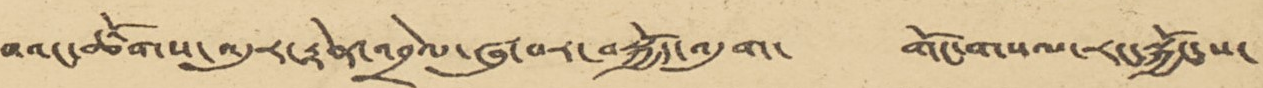བའང་ཚོགས་འདུར་རྟེན་འབྲེལ་ཞུ་བར་བསྐྱོད་འདུག་ གོང་གསལ་རང་སྐྱོང་ས་
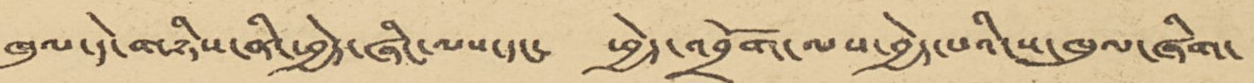ཁུལ་དེ་གཉིས་ནི་ཕྱེད་ཞིང་ལས་དང་ ཕྱེད་འབྲོག་ལས་བྱེད་པའི་ས་ཁུལ་ཞིག་
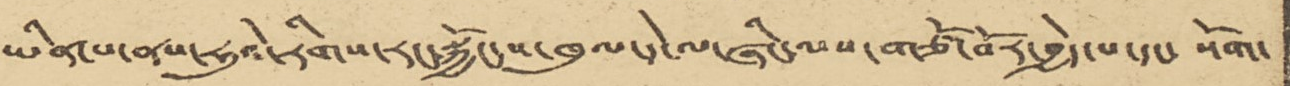ཡིན་པ་ནས་ཧུའེ་རིགས་རང་སྐྱོང་ས་ཁུལ་དེ་ལ་ཞིང་ལས་གཙོ་བོར་བྱེད་པ་དང་ སོག་
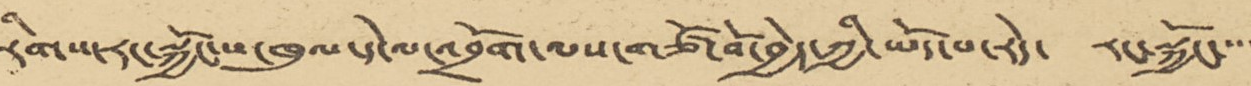རིགས་རང་སྐྱོང་ས་ཁུལ་དེ་ལ་འབྲོག་ལས་གཙོ་བོ་བྱེད་ཀྱི་ཡོད་པ་རེད་ རང་སྐྱོང་་་་
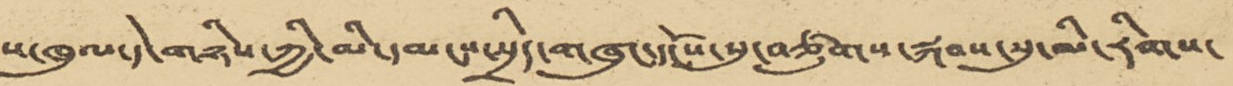ས་ཁུལ་དེ་གཉིས་ཀྱི་མི་དམངས་སྲིད་གཞུང་དངོས་སུ་བཙུགས་སྐབས་སུ་མི་རིགས་
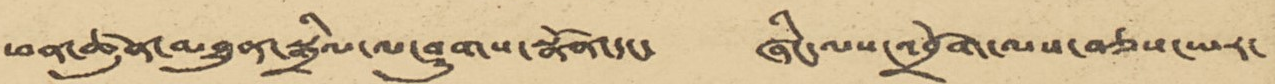ཕན་ཚུན་མཐུན་སྒྲིལ་ལ་ཤུགས་སྣོན་དང་ ཞིང་ལས་འབྲོག་ལས་བཅས་ཡར་
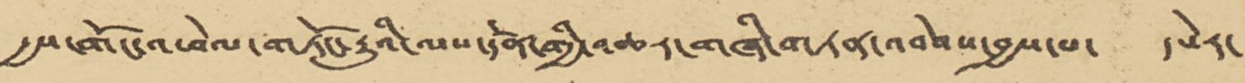རྒྱས་གོང་འཕེལ་གཏོང་རྒྱུའི་ལས་དོན་གྱི་འཆར་གཞི་གཏན་འབེབས་བྱས་པ་ དཔེར་
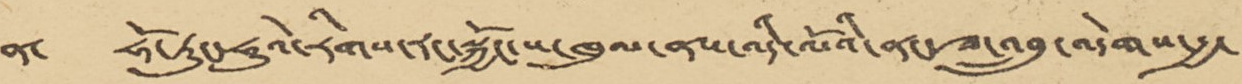ན་ ཧོ་ཏུང་ཧུའེ་རིགས་རང་སྐྱོང་ས་ཁུལ་ནས་འདི་ལོའི་ནང་ཟ་འབྲུ་འདེགས་རྒྱ་
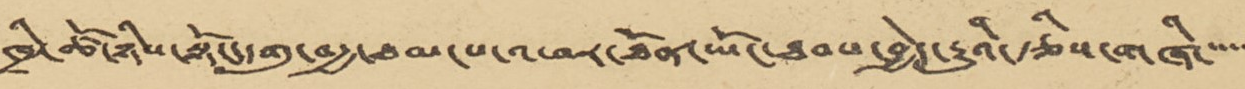ཁྲི་ཚོ་ཉིས་སྟོང་དགུ་བརྒྱ་ཐམ་པ་འཕར་ཐོན་ཡོང་ཐབས་བྱེད་རྒྱུའི་རྩིས་གཞི་་་་་་
